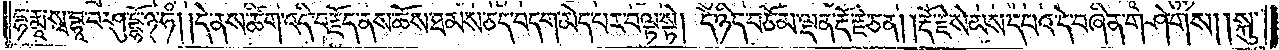དྷ་རྨཱ་སྭ་བྷཱ་བ་ཤུདྡྷོ྅ཧཾ། །དེ་ནས་ཚིག་འདི་བརྗོད་ནས་ཆོས་ཐམས་ཅད་བདག་མེད་པར་བལྟ་སྟེ། དེ་ཉིད་བཅོམ་ལྡན་རྡོ་རྗེ་ཅན། །རྡོ་རྗེ་སེམས་དཔའ་དེ་བཞིན་གཤེགས། །སྐུ་
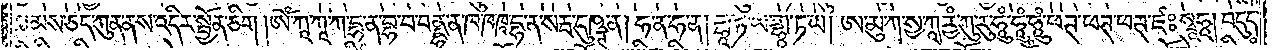ཐམས་ཅད་ཀུན་ནས་འདིར་སྦྱོན་ཅིག །ཨོཾ་ཀཱ་ཀཱ་ཀ་དྷ་ན་བྷ་བ་བནྡྷ་ན་ཁ་ཁ་ཁཱདྷ་ན་སརྦ་དུཥྚ་ན། ཧ་ན་ཧ་ན། གྷཱ་ཏ་ཡ་གྷཱ་ཏ་ཡ། ཨ་མུ་ཀ་སྱ་ཀཱ་ཪྱཾ་ཀུ་རུ་ཧཱུཾ་ཧཱུཾ་ཧཱུཾ་ཕཊ་ཕཊ་ཕཊ་ཛཿ སྭཱཧཱ། བདུད་
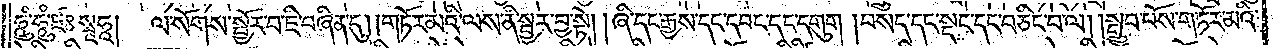ཧཱུཾ་ཧཱུཾ་ཛཿསྭཱཧཱ། ལ་སོགས་སྦྱོར་བ་ཇི་བཞིན་དུ། །གཏོར་མའི་ལས་ནི་སྦྱར་བྱ་སྟེ། །ཞི་དང་རྒྱས་དང་དབང་དང་དགུག །བསད་དང་སྡང་དང་བཅིང་བ་ལ། །སྒྲུབ་པོས་གཏོར་མའི་
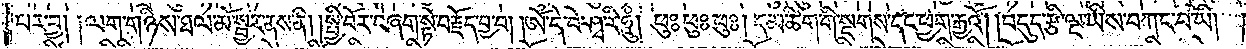པར་བྱ། །ལག་གཉིས་ཐལ་མོ་སྦྱར་ནས་ནི། །སྤྱི་བོར་བཞག་སྟེ་བརྗོད་བྱ་བ། །ཨོཾ་དེ་བེ་ཤྭ་རི་ཧཱུཾ། ཕུཿཕུཿཕུཿ། དམ་ཚིག་གི་སྔགས་དང་ཕྱག་རྒྱའོ། །བདུད་རྩི་ལྔ་ཡིས་བཀང་བ་ཡི།
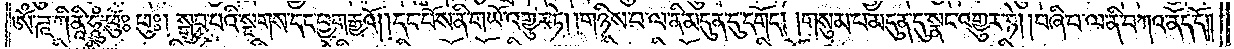ཨོཾ་ཌཱ་ཀི་ནཱི་ཧཱུཾ་ཕུཿཕུཿ། སྒྲུབ་པའི་སྔགས་དང་ཕྱག་རྒྱའོ། །དང་པོས་ནི་གཡོ་འགྱུར་ཏེ། །གཉིས་པ་ལ་ནི་མདུན་དུ་དགོད། །གསུམ་པ་མདུན་དུ་སྣང་འགྱུར་ཏེ། །བཞི་པ་ལ་ནི་བཀའ་ནོད་དོ། །
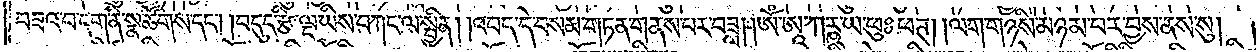བཟའ་བ་དག་ནི་སྣ་ཚོགས་དང༌། །བདུད་རྩི་ལྔ་ཡིས་བཀང་ལ་སྦྱིན། །འབད་དེ་བསམ་གཏན་གནས་པར་བཟླ། །ཨོཾ་ཨཱ་ཀཪྵ་ཡ་ཕུཿཕཊ། །ལག་གཉིས་མཉམ་པར་བྱས་ནས་སུ། །
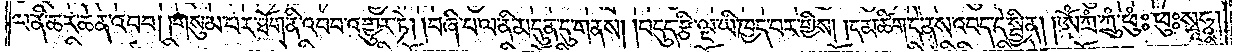ལ་ནི་ཆར་ཆེན་འབབ། །གསུམ་པར་ཐོག་ནི་འབབ་འགྱུར་ཏེ། །བཞི་པ་ལ་ནི་མདུན་དུ་གནས། །བདུད་རྩི་ལྔ་ཡི་ཁྱད་པར་གྱིས། །དམ་ཚིག་དེ་ནས་འབད་དེ་སྦྱིན། །ཨོཾ་ཀྲཾ་ཀྲུཾ་ཕུཾཿ ཕུཿསྭཱཧཱ།
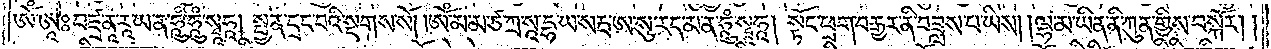ཨོཾ་ཨཱཿབཛྲ་ནཱ་རཱ་ཡ་ན་ཧཱུཾ་ཧཱུཾ་སྭཱཧཱ། །སྤྱན་དྲངས་པའི་སྔགས་སོ། །ཨོཾ་མ་མ་ཙ་ཀྲ་སཱ་དྷ་ཡ་སརྦ་ཨ་སུ་རད་མ་ན་ཧཱུཾ་སྭཱཧཱ། སྟོང་ཕྲག་བརྒྱར་ནི་བཟླས་པ་ཡིས། །ལྷ་མ་ཡིན་ནི་ཀུན་གྱིས་བསྐོར། །
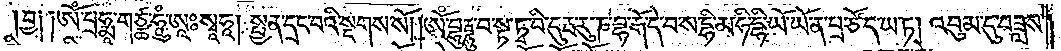བྱ༑ ༑ཨོཾ་བྲཧྨཱ་གཙྪ་ཧཱུཾ་ཨཱཿསྭཱཧཱ། སྤྱན་དྲང་བའི་སྔགས་སོ། །ཨོཾ་བྷུརྦྷུ་བ་སྟ་ཏྭ་བི་དུརྦ་རུ་ཎ་བྷ་རྒོ་དེ་བ་ས་དྷི་མ་ཧི་དྷི་ཡོ་ཡོན་པྲ་ཙོ་ད་ཡ་ཏ། འབུམ་དུ་བཟླས་
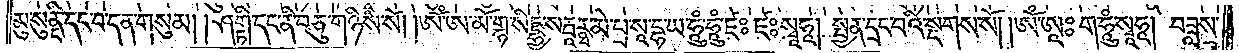མུ་སུནྡི་དང་བ་དན་གསུམ། །ཤགྟི་དང་ནི་བཅུ་གཉིས་སོ། །ཨོཾ་ཨ་མོ་གྷ་སིདྡྷྱ་སརྦཱརྠ་མེ་པྲ་སཱ་དྷ་ཡ་ཧཱུཾ་ཧཱུཾ་ཛཿཛཿསྭཱཧཱ། སྤྱན་དྲང་བའི་སྔགས་སོ། །ཨོཾ་ཨཱཿག་ཧཱུཾ་སྭཱཧཱ། བཟླས་
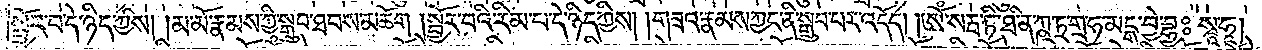སྦྱོར་བ་དེ་ཉིད་ཀྱིས། །མ་མོ་རྣམས་ཀྱི་སྒྲུབ་ཐབས་མཆོག །སྦྱོར་བའི་རིམ་པ་དེ་ཉིད་ཀྱིས། །གཟའ་རྣམས་ཀྱང་ནི་སྒྲུབ་པར་འདོད། །ཨོཾ་སརྦ་ཏི་ཐི་ན་ཀྵ་ཏྲ་གྲ་ཧ་མངྒ་བྱེ་བྷྱཿསྭཱཧཱ།
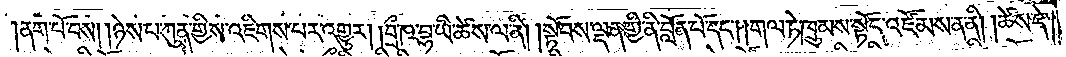ནག་པོ་བས། །ཉེས་པ་ཀུན་གྱིས་འཇིགས་པར་འགྱུར། །བྲྀ་ཥ་བྷ་ཡི་ཚེས་ལ་ནི། །སྟོབས་ལྡན་གྱི་ནི་བློན་པོ་དང༌། །གལ་ཏེ་ཁྲུམས་སྟོད་འཛོམས་ན་ནི། །ཚེས་དེ་
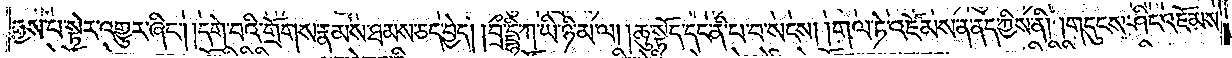རྒྱས་པ་སྟེར་འགྱུར་ཞིང༌། །དགེ་བའི་གྲོགས་རྣམས་ཐམས་ཅད་བྱེད། །བྲྀ་དྡྷི་ཀ་ཡི་ཉི་མ་ལ། །ཆུ་སྟོད་དང་ནི་པ་བ་སངས། །གལ་ཏེ་འཛོམས་ན་ནད་ཀྱིས་ནི། །གདུངས་ཤིང་འཇོམས་
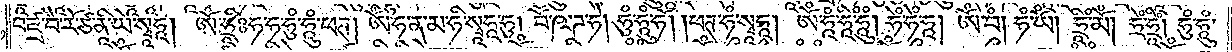བཛྲ་བཻ་རོ་ཙ་ནཱི་ཡེ་སྭཱཧཱ། ཨོཾ་ཧྲཱིཿཧ་ཧ་ཧུཾ་ཧཱུཾ་ཕཊ། ཨོཾ་ཧ་ན་མ་ཧི་སྭཱཧཱ་ཧུ། བོ་ཥ་ཌ་ཧེ། ཧུཾ་ཧཱུཾ་ཧོ། །ཕཊ་ཧཾ་སྭཱཧཱ། ཨོཾ་ཧཱཾ་ཧཱིཾ་ཧཱུཾ། ཧེཾ་ཧེཾ་ཧཱ། ཨོཾ་བཾ། ཧཾ་ཡོཾ། ཧྲིཾ་མོཾ། ཧྲེཾ་ཧྲཱིཾ། ཧུཾ་ཧཱུཾ་
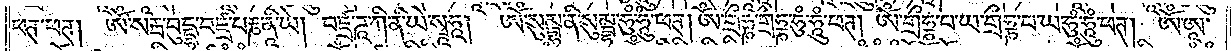ཕཊ་ཕཊ། ཨོཾ་སརྦ་བུདྡྷ་བཛྲ་པརྞ་ནཱི་ཡ། བཛྲ་ཌཱ་ཀི་ནི་ཡེ་སྭཱཧཱ། ཨོཾ་སུམྦྷ་ནི་སུམྦྷ་ཧཱུཾ་ཧཱུཾ་ཕཊ། ཨོཾ་གྲྀཧྞ་གྲྀཧྞ་ཧུཾ་ཧཱུཾ་ཕཊ། ཨོཾ་གྲྀཧྞ་པ་ཡ་གྲྀཧྞ་པ་ཡ་ཧུཾ་ཧཱུཾ་ཕཊ། ཨོཾ་ཨཱ་
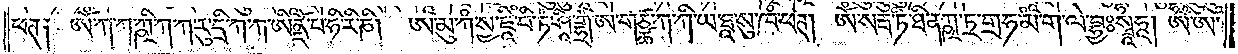ཕཊ༑ ཨོཾ་ཀ་ཀ་ཀྵི་ཀ་ཀ་རུ་དྲི་ཀ་ཀ་ཨིནྡྲོ་པ་ཏི་རི་ཎི། ཨ་མུ་ཀཾ་སྱ་ཛཱི་བི་ཏཾ་ཤཱི་གྷྲཾ་ཨ་གཙྪ་ཀ་ཀི་ཡ་ཐཱ་སུ་ཁཾ་ཕཊ། ཨོཾ་སརྦ་ཏི་ཐི་ནཀྵ་ཏྲ་གྲ་ཧ་མཾ་ག་ལེ་བྷྱཿ སྭཱཧཱ། ཨོཾ་ཨ་
